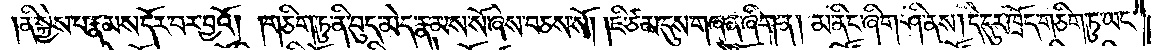།ནི་སྐྱེས་པ་རྣམས་དོར་བར་བྱའོ། །གཅིག་ཏུ་ནི་བུད་མེད་རྣམས་སོ་ཞེས་བཅས་སོ། །ཇི་ཙམ་དུས་གཞན་ཞིག་ན། མ་ནིང་ཞིག་ཤི་ནས། དེ་དུར་ཁྲོད་གཅིག་ཏུ་ཡང་
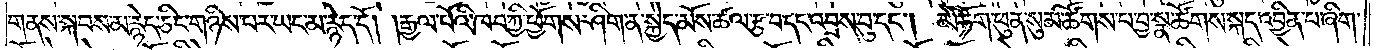གནས་སྐབས་མ་རྙེད་ཅིང་གཉིས་པར་ཡང་མ་རྙེད་དོ། །རྒྱལ་པོའི་ཁབ་ཀྱི་ཕྱོགས་ཤིག་ན་སྐྱེད་མོས་ཚལ་རྩ་བ་དང་འབྲས་བུ་དང༌། མེ་ཏོག་ཕུན་སུམ་ཚོགས་པ་བྱ་སྣ་ཚོགས་སྐད་འབྱིན་པ་ཞིག་
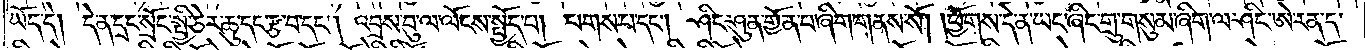ཡོད་དེ། དེ་ན་དྲང་སྲོང་སྤྱི་ཅེར་ཆུ་དང་རྩ་བ་དང༌། འབྲས་བུ་ལ་ལོངས་སྤྱོད་པ། པགས་པ་དང༌། ཤིང་ཤུན་གྱོན་པ་ཞིག་གནས་སོ། །ཕྱོགས་དེ་ན་ཡང་ཞིང་གྲུ་གསུམ་ཞིག་ལ་ཤིང་ཨེ་རན་ད་
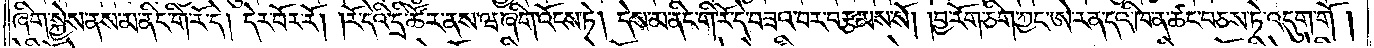ཞིག་སྐྱེས་ནས་མ་ནིང་གི་རོ་དེ། དེར་བོར་རོ། །རོ་དེའི་དྲི་ཚོར་ནས་ཝ་ཞིག་འོངས་ཏེ། དེས་མ་ནིང་གི་རོ་དེ་བཟའ་བར་བརྩམས་སོ། །བྱ་རོག་ཅིག་ཀྱང་ཨེ་རན་དའི་ཁ་ན་ཚང་བཅས་ཏེ་འདུག་གོ །
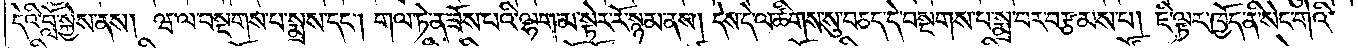དེའི་བློ་སྐྱེས་ནས། ཝ་ལ་བསྔགས་པ་སྨྲས་དང༌། གལ་ཏེ་ན་ཟོས་པའི་ལྷག་མ་སྟེར་རོ་སྙམ་ནས། དེས་དེ་ལ་ཚིགས་སུ་བཅད་དེ་བསྔགས་པ་སྨྲ་བར་བརྩམས་པ། ཇི་ལྟར་ཁྱོད་ནི་སེང་གེའི་
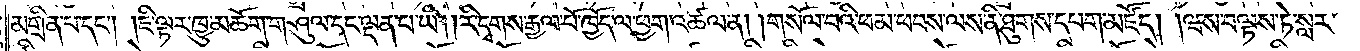མགྲིན་པ་དང༌། །ཇི་ལྟར་ཁྱུ་མཆོག་གཤུལ་དང་ལྡན་པ་ཡི། །རི་དྭགས་རྒྱལ་པོ་ཁྱོད་ལ་ཕྱག་འཚལ་ན། །གསོལ་བའི་ཕམ་ཕབས་ལས་ནི་ཐུགས་དཔག་མཛོད། །ཝས་བལྟས་ཏེ་སླར་
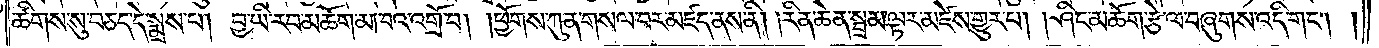ཚིགས་སུ་བཅད་དེ་སྨྲས་པ། བྱ་ཡི་རབ་མཆོག་མཁའ་འགྲོ་བ། །ཕྱོགས་ཀུན་གསལ་བར་མཛད་ནས་ནི། །རིན་ཆེན་སྦྲམ་ལྟར་མཛེས་གྱུར་པ། །ཤིང་མཆོག་རྩེ་ལ་བཞུགས་འདི་གང༌། །
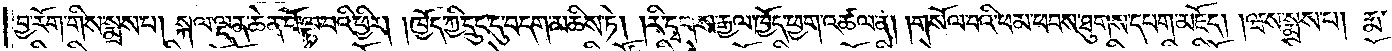བྱ་རོག་གིས་སྨྲས་པ། སྐལ་ལྡན་ཆེན་པོ་ལྟ་བའི་ཕྱིར། །ཁྱོད་ཀྱི་དྲུང་དུ་བདག་མཆིས་ཏེ། །རི་དྭགས་རྒྱལ་ཁྱོད་ཕྱག་འཚལ་ན། །གསོལ་བའི་ཕམ་ཕབས་ཐུགས་དཔག་མཛོད། །ཝས་སྨྲས་པ། རྨ་
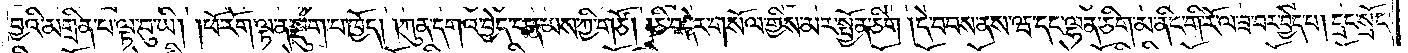བྱའི་མགྲིན་པ་ལྟ་བུ་ཡི། །ཕོ་རོག་ལྟ་ན་སྡུག་པ་ཁྱོད། །ཀུན་དགའ་བྱེད་པ་རྣམས་ཀྱི་གཙོ། །ཅི་བདེར་གསོལ་གྱིས་མར་སྤྱོན་ཅིག །དེ་བབས་ནས་ཝ་དང་ལྷན་ཅིག་མ་ནིང་གི་རོ་ལ་ཟ་བར་བྱེད་པ། དྲང་སྲོང་
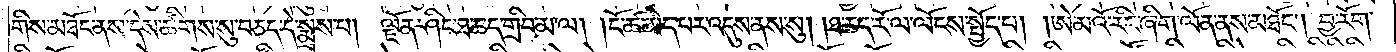གིས་མཐོང་ནས་དེས་ཚིགས་སུ་བཅད་དེ་སྨྲས་པ། ལྗོན་ཤིང་ཐ་ཆད་གྲིབ་མ་ལ། །ངོ་ཚ་མེད་པར་འདུས་ནས་སུ། །ཐ་ཆད་རོལ་ལོངས་སྤྱོད་པ། །ཨེ་མའོ་རིང་ཞིག་ལོན་ནས་མཐོང༌། བྱ་རོག་
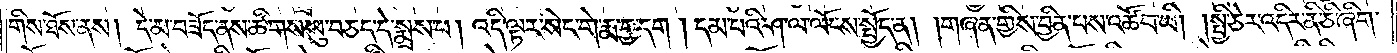གིས་ཐོས་ནས། དེ་མ་བཟོད་ནས་ཚིགས་སུ་བཅད་དེ་སྨྲས་པ། འདི་ལྟར་སེང་གེ་རྨ་བྱ་དག །དམ་པའི་ཤ་ལ་ལོངས་སྤྱོད་ན། །གཞན་གྱིས་བྱིན་པས་འཚོ་བ་ཡི། །སྤྱི་ཅེར་འདིར་ནི་ཅི་ཞིག་
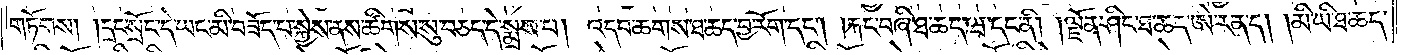གཏོགས། །དྲང་སྲོང་དེ་ཡང་མི་བཟོད་པ་སྐྱེས་ནས་ཚིགས་སུ་བཅད་དེ་སྨྲས་པ། འདབ་ཆགས་ཐ་ཆད་བྱ་རོག་དང༌། །རྐང་བཞི་ཐ་ཆད་ཝ་དང་ནི། །ལྗོན་ཤིང་ཐ་ཆད་ཨེ་རན་ད། །མི་ཡི་ཐ་ཆད་
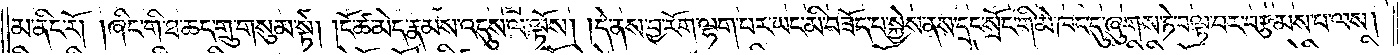མ་ནིང་རོ། །ཞིང་གི་ཐ་ཆད་གྲུ་གསུམ་སྟེ། །ངོ་ཚ་མེད་རྣམས་འདུས་ལ་ལྟོས། །དེ་ནས་བྱ་རོག་ལྷག་པར་ཡང་མི་བཟོད་པ་སྐྱེས་ནས་དྲང་སྲོང་གི་མེ་ཁང་དུ་ཞུགས་ཏེ་བལྟ་བར་བརྩམས་པ་ལས།
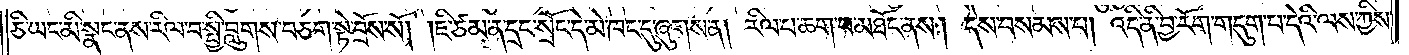ཅི་ཡང་མི་སྣང་ནས་རིལ་བ་སྤྱི་བླུགས་བཅག་སྟེ་བྲོས་སོ། །ཇི་ཙམ་ན་དྲང་སྲོང་དེ་མེ་ཁང་དུ་ཞུགས་ན། རིལ་པ་ཆག་པ་མཐོང་ནས། དེས་བསམས་པ། འདི་ནི་བྱ་རོག་གདུག་པ་དེའི་ལས་ཀྱིས་
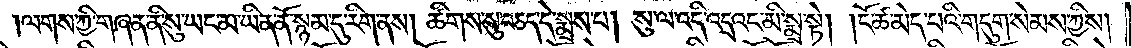ལགས་ཀྱི་གཞན་ནི་སུ་ཡང་མ་ཡིན་ནོ་སྙམ་དུ་རིག་ནས། ཚིགས་སུ་བཅད་དེ་སྨྲས་པ། སུ་ལ་འདི་འདྲའང་མི་སྨྲ་སྟེ། །ངོ་ཚ་མེད་པའི་གདུག་སེམས་ཀྱིས།
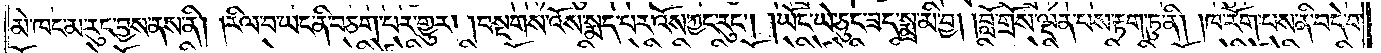མེ་ཁང་མ་རུང་བྱས་ནས་ནི། །རིལ་བ་ཡང་ནི་བཅག་པར་འགྱུར། །བསྔགས་འོས་སྨད་པར་འོས་ཀྱང་རུང༌། །ཡོང་ཡེ་ཅུང་ཟད་སྨྲ་མི་བྱ། །བློ་གྲོས་ལྡན་པས་རྟག་ཏུ་ནི། །ཁ་རོག་པས་ནི་བདེ་བ་
